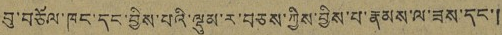བུ་བཅོལ་ཁང་དང་བྱིས་པའི་ལྡུམ་ར་བཅས་ཀྱིས་བྱིས་པ་རྣམས་ལ་ཟས་དང་།
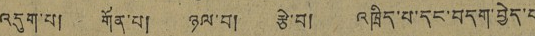འདུག་པ། གོན་པ། ཉལ་བ། རྩེ་བ། འཁྲིད་པ་དང་བདག་བྱེད་པ
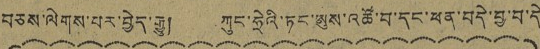བཅས་ལེགས་པར་བྱེད་རྒྱུ། ཀུང་ཧྲེའི་ཏང་ཨུས་འཚོ་བ་དང་ཕན་བདེ་བྱ་བ་དེ
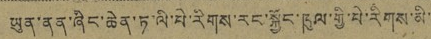ཡུན་ནན་ཞིང་ཆེན་ཏ་ལི་པེ་རིགས་རང་སྐྱོང་ཁུལ་གྱི་པེ་རིགས་མི་་་
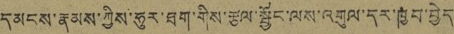དམངས་རྣམས་ཀྱིས་ཧུར་ཐག་གིས་རྩལ་སྦྱོང་ལས་འགུལ་དར་ཁྱབ་བྱེད་
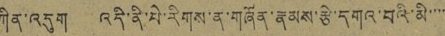ཀིན་འདུག འདི་ནི་པེ་རིགས་ན་གཞོན་རྣམས་རྩེ་དགའ་བའི་མི་་་་་་
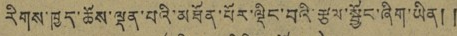རིགས་ཁྱད་ཆོས་ལྡན་པའི་མཐོན་པོར་ལྡིང་བའི་རྩལ་སྦྱོང་ཞིག་ཡིན། །
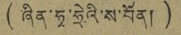(ཞིན་ཧྭ་ཧྲེའི་ས་བོན།)
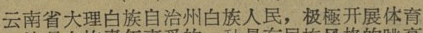云南省大理白族自治州白族人民，极極开展体育
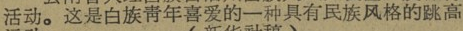活动。这是白族靑年喜爱的一种具有民族风格的跳高
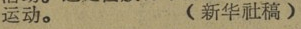运动。 （新华社稿）
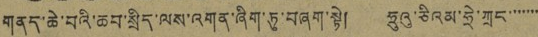གནད་ཆེ་བའི་ཆབ་སྲིད་ལས་འགན་ཞིག་ཏུ་བཞག་སྟེ། ཧྲུའུ་ཅིའམ་ཧྲེ་ཀྲང་་་་་་་
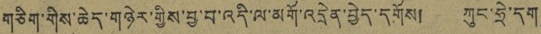གཅིག་གིས་ཆེད་གཉེར་གྱིས་བྱ་བ་འདི་ལ་མགོ་འདྲེན་བྱད་དགོས། ཀུང་ཧྲེ་དག
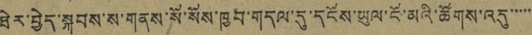ཐེར་བྱེད་སྐབས་ས་གནས་སོ་སོས་ཁྱབ་གདལ་དུ་དངོས་ཡུལ་ངོ་མའི་ཚོགས་འདུ་་་་་་
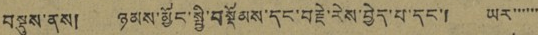བསྡུས་ནས། ཉམས་མྱོང་སྤྱི་བསྡོམས་དང་བརྗེ་རེས་བྱེད་པ་དང་། ཡར་་་་་་
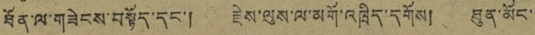ཐོན་ལ་གཟེངས་བསྟོད་དང་། རྗེས་ལུས་ལ་མགོ་འཁྲིད་དགོས། ཐུན་མོང་་
